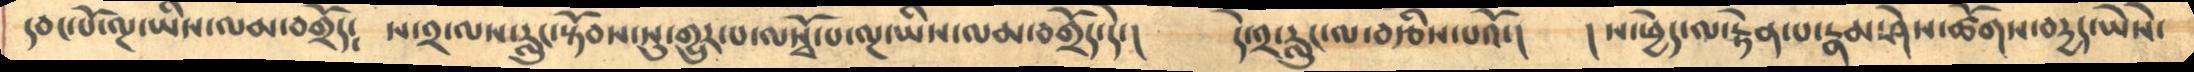དབང་པོ་ལྔ་ཡིས་ལམ་བགྲོད༴   ས་༢་ལས་རླུང་སྟོབས་སུ་གྱུར་པ་ལསྭོ་པ་ལྔ་ཡིས་ལམ་བགྲོད་དེ་།    དེ་༢་རླུང་ལ་བརྩིས་པའོ་།    །ས་ཕྱེད་ལ་རྟེན་པ་རྣམ་ཤེས་ཚོགས་བདྱད་ཡེེས་
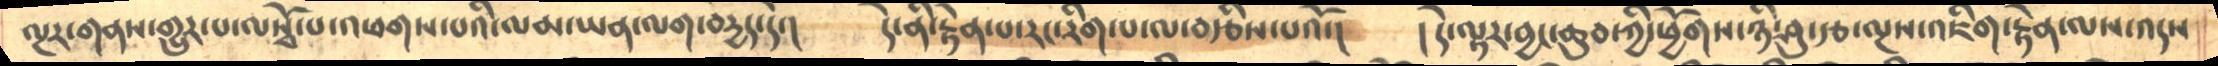ལྔར་གནས་གྱུར་པ་ལསྭོ་པ་འཕགས་པའི་ལམ་ཡན་ལག་བདྱད་དེ་།      དེ་ནི་རྟེན་པ་རང་རིག་པ་ལ་བརྩིས་པའོ་།    །དེ་ལྟར་བྱང་ཆུབ་ཀྱི་ཕྱོགས་ཉི་ཤུ་རྩ་ལྔས་འཇིག་རྟེན་ལས་འདས
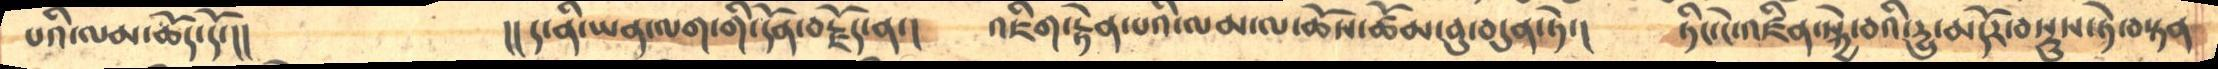པའི་ལམ་ཆོད་དོ་།།         །།ད་ནི་ཡན་ལག་གི་དོན་བརྗོད་ན་།     འཇིག་རྟེན་པའི་ལམ་ལ་ཆོས་ཚོམ་བུ་བདུན་ཏེ་།    ཏིང་ངེ་འཛིན་སྐྱེ་བའི་དྱུ་མདོར་བསྡུས་ཏེ་བསྟན
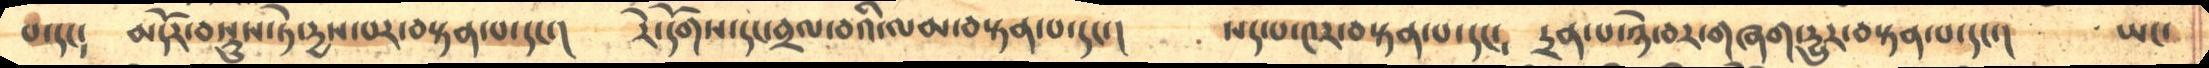པ་དང༴    མདོར་བསྡུས་ཏེ་དྱས་པར་བསྟན་པ་དང་།  དེ་དོགས་དང་བྲལ་བའི་ལམ་བསྟན་པ་དང་།    སད་པ་༤ར་བསྟན་པ་དང༴    དྲན་པ་ཉེ་བར་གཞག་དྱུར་བསྟན་པ་དང་།      ཡང་
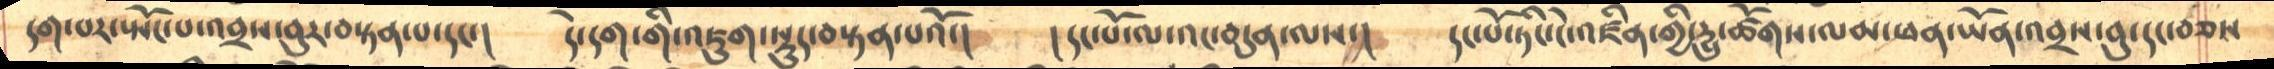དག་པར་སྤོང་པ་འབྲས་བུར་བསྟན་པ་དང་།    དེ་དག་གི་འཇུག་སྡུད་བསྟན་པའོ་།    །དང་པོ་ལ་འང་བདུན་ལས་།   དང་པོ་ཏིང་ངེ་འཛིན་གྱི་དྱུ་ཚོགས་ལམ་ཕན་ཡོན་འབྲས་བུ་དང་བཅས
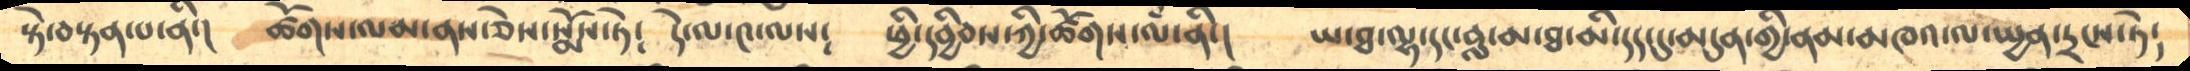སྟེ་བསྟན་པ་ནི་།    ཚོགས་ལམ་ནས་ཅེས་སྨོས་ཏེ༴   དེ་ལ་༤་ལས༴   ཕྱི་དབྱིབས་ཀྱི་ཚོགས་ལཾ་ནི་།   ཡ་ཐ་ལྷ་དང་བླ་མ་ཐ་མི་དད་དུ་མདུན་གྱི་ནམ་མཁའ་ལ་སྤྱན་དྲངས་ཏེ༴
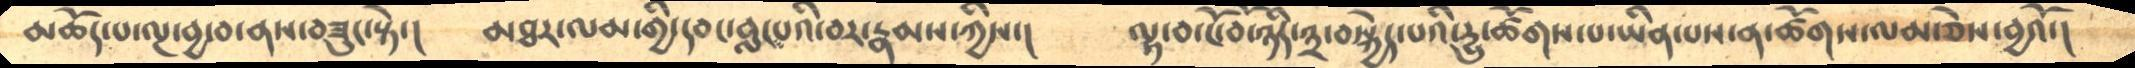མཆོད་པ་ལྔ་བྱ་བ་ནས་བཟུང་སྟེ་།    མཐར་ལམ་གྱི་དབང་བླངཔའི་བར་རྣམས་ཀྱིས་།   ལྟ་བ་ངོ་བོ་ཉིད་༣་བསྐྱེད་པའི་དྱུ་ཚོགས་པ་ཡིན་པས་ན་ཚོགས་ལམ་ཅེས་བྱའོ་།
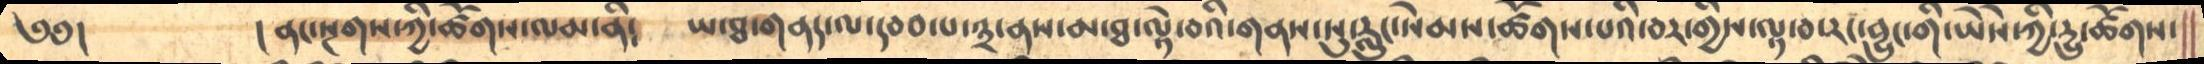༄༅།       །ནང་སྔགས་ཀྱི་ཚོགས་ལམ་ནི༴      ཡ་ཐ་གནད་ལ་དབབ་པ་༣་ནས་མ་ཐ་ལྟེ་བའི་གནས་སུ་རླུང་སེམས་ཚོགས་པའི་བར་གྱིས་ལྟ་བ་རང་བྱུང་གི་ཡཻས་ཀྱི་དྱུ་ཚོགས་
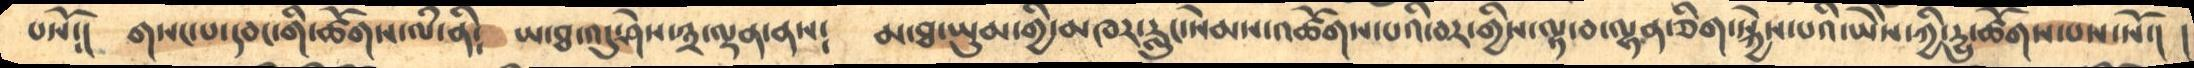པསོ༴།   གསང་པ་དབང་གི་ཚོགས་ལཾ་ནི༴   ཡ་ཐ་འདུ་ཤེས་༣་ལྡན་ནས༴   མ་ཐ་ཡུམ་གྱི་མཁར་རླུང་སེམས་འཚོགས་པའི་བར་གྱིས་ལྟ་བ་ལྷན་ཅིག་སྐྱེས་པའི་ཡཻས་ཀྱི་དྱུ་ཚོགས་པས་སོ་།  །
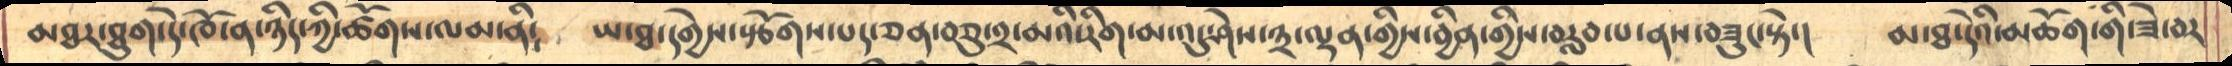མཐར་ཐུག་དེ་ཁོ་ན་ཉིད་ཀྱི་ཚོགས་ལམ་ནི༴   ཡ་ཐ་དགྱེས་སྩོགས་པར་ཅན་བཅུ་༢་མའི་རིག་མ་འདུ་ཤེས་༣་ལྡན་གྱིས་བྱིན་གྱིས་བརླབ་པ་ནས་བཟུང་སྟེ་།    མ་ཐ་དེའི་མཆོག་གི་ཟེ་བར
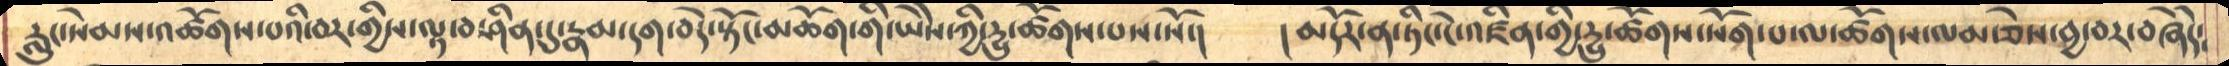རླུང་སེམས་འཚོགས་པའི་བར་གྱིས་ལྟ་བ་ཤིན་དུ་རྣམ་དག་བདེ་སྟོང་མཆོག་གི་ཡཻས་ཀྱི་དྱུ་ཚོགས་པས་སོ་།    །མདོར་ན་ཏིང་ངེ་འཛིན་གྱི་དྱུ་ཚོགས་སོག་པ་ལ་ཚོགས་ལམ་ཅེས་བྱ་བར་བཞེདེ༴
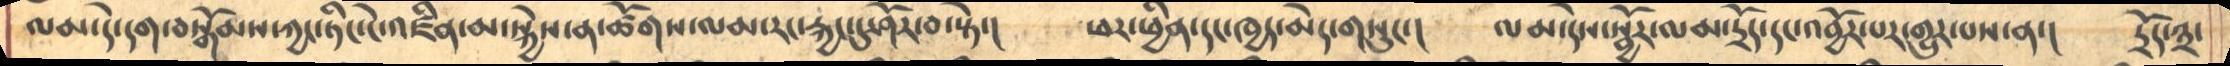ལམ་དེ་དག་བསྒོམས་ཀྱང་ཏིང་ངེ་འཛིན་མ་སྐྱེས་ན་ཚོགས་ལམ་རང་རྐྱང་དུ་ཤོར་བ་སྟེ་།    ཕར་ཕྱིན་དང་ཁྱད་མེད་གསུང་།    ལམ་དེས་སྦྱོར་ལམ་དྲོད་དང་འབྱོར་པར་གྱུར་པས་ན་།   དྲོད་༣་
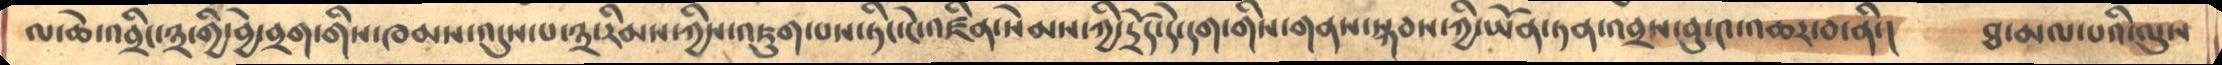ལ་ཆེ་འབྲིང་༣་ཀྱི་བྱེ་བྲག་གིས་ཁམས་འདུས་པ་༣་རིམས་ཀྱིས་འཇུག་པས་ཏིང་ངེ་འཛིན་སེམས་ཀྱི་དྲོད་དེ་དག་གིས་གནས་སྐབས་ཀྱི་ཡོན་ཏན་འབྲས་བུ་༤་འཆར་བ་ནི་།   ཐ་མལ་པའི་ལུས
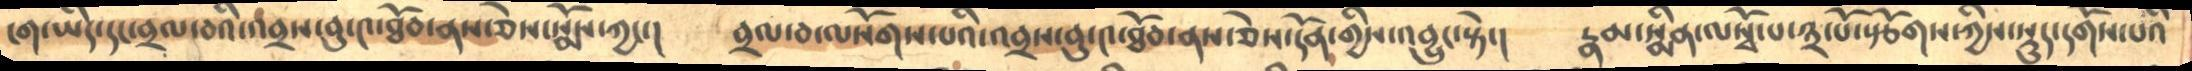ངག་ཡིད་དང་བྲལ་བའི་འབྲས་བུ་༤་ཐོབ་ནས་ཅེས་སྨོས་ཀྱང་།   བྲལ་བ་ལསོགས་པའི་འབྲས་བུ་༤་ཐོབ་ནས་ཅེས་དོན་གྱིས་འབྱུང་སྟེ་།   རྣམ་སྨིན་ལསྭོ་པ་༣་པོ་སྩོགས་ཀྱིས་སྡུད་དགོས་པའི
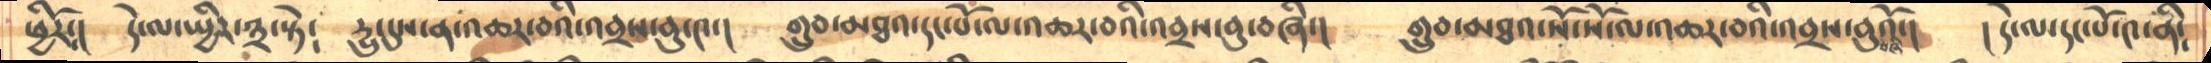ཕྱིརོ༴།    དེ་ལ་སྤྱིར་༣་སྟེ༴   དྱུ་དུས་ན་འཆར་བའི་འབྲ་བུ་༤་།   གྲུབ་མཐའ་དང་པོ་ལ་འཆར་བའི་འབྲས་བུ་བཞི་།  གྲུབ་མཐའ་སོ་སོ་ལ་འཆར་བའི་འབྲས་བུ་བཞིའོ་།   །དེ་ལ་དང་པོ་༤་ནི༴
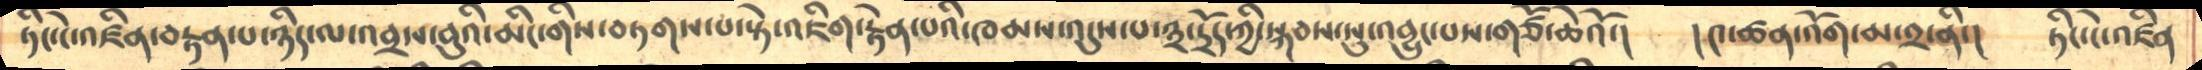ཏིང་ངེ་འཛིན་བརྟན་པ་ཉིད་ལ་འབྲས་བུའི་མིང་གིས་བཏགས་པ་སྟེ་འཇིག་རྟེན་པའི་ཁམས་འདུས་པ་༣་དྲོད་ཀྱི་སྐབས་སུ་འབྱུང་པས་གཙོ་ཆེའོ་།    །༤་ཚན་འོག་མ་༢་ནི་།  ཏིང་ངེ་འཛིན
